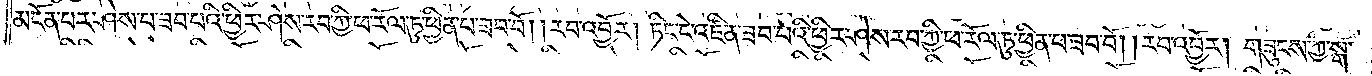མངོན་པར་ཤེས་པ་ཟབ་པའི་ཕྱིར་ཤེས་རབ་ཀྱི་ཕ་རོལ་ཏུ་ཕྱིན་པ་ཟབ་བོ། །རབ་འབྱོར། ཏིང་ངེ་འཛིན་ཟབ་པའི་ཕྱིར་ཤེས་རབ་ཀྱི་ཕ་རོལ་ཏུ་ཕྱིན་པ་ཟབ་བོ། །རབ་འབྱོར། གཟུངས་ཀྱི་སྒོ་
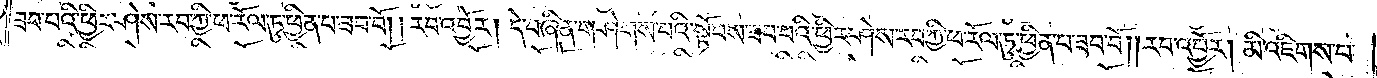ཟབ་པའི་ཕྱིར་ཤེས་རབ་ཀྱི་ཕ་རོལ་ཏུ་ཕྱིན་པ་ཟབ་བོ། །རབ་འབྱོར། དེ་བཞིན་གཤེགས་པའི་སྟོབས་ཟབ་པའི་ཕྱིར་ཤེས་རབ་ཀྱི་ཕ་རོལ་ཏུ་ཕྱིན་པ་ཟབ་བོ། །རབ་འབྱོར། མི་འཇིགས་པ་
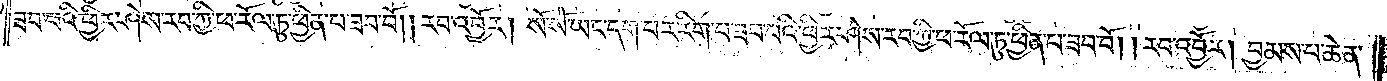ཟབ་པའི་ཕྱིར་ཤེས་རབ་ཀྱི་ཕ་རོལ་ཏུ་ཕྱིན་པ་ཟབ་བོ། །རབ་འབྱོར། སོ་སོ་ཡང་དག་པར་རིག་པ་ཟབ་པའི་ཕྱིར་ཤེས་རབ་ཀྱི་ཕ་རོལ་ཏུ་ཕྱིན་པ་ཟབ་བོ། །རབ་འབྱོར། བྱམས་པ་ཆེན་
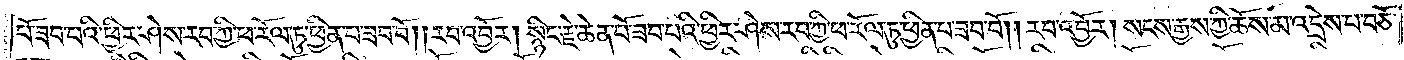པོ་ཟབ་པའི་ཕྱིར་ཤེས་རབ་ཀྱི་ཕ་རོལ་ཏུ་ཕྱིན་པ་ཟབ་བོ། །རབ་འབྱོར། སྙིང་རྗེ་ཆེན་པོ་ཟབ་པའི་ཕྱིར་ཤེས་རབ་ཀྱི་ཕ་རོལ་ཏུ་ཕྱིན་པ་ཟབ་བོ། །རབ་འབྱོར། སངས་རྒྱས་ཀྱི་ཆོས་མ་འདྲེས་པ་བཅོ་
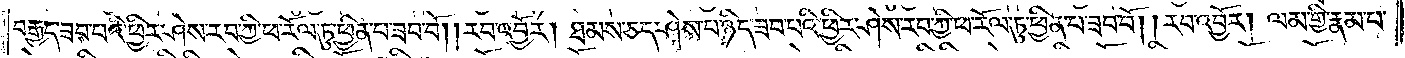བརྒྱད་ཟབ་པའི་ཕྱིར་ཤེས་རབ་ཀྱི་ཕ་རོལ་ཏུ་ཕྱིན་པ་ཟབ་བོ། །རབ་འབྱོར། ཐམས་ཅད་ཤེས་པ་ཉིད་ཟབ་པའི་ཕྱིར་ཤེས་རབ་ཀྱི་ཕ་རོལ་ཏུ་ཕྱིན་པ་ཟབ་བོ། །རབ་འབྱོར། ལམ་གྱི་རྣམ་པ་
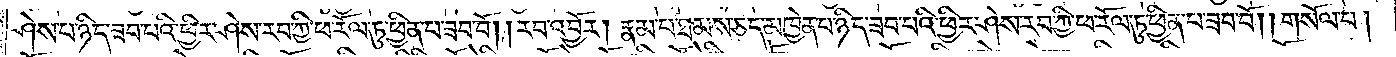ཤེས་པ་ཉིད་ཟབ་པའི་ཕྱིར་ཤེས་རབ་ཀྱི་ཕ་རོལ་ཏུ་ཕྱིན་པ་ཟབ་བོ། །རབ་འབྱོར། རྣམ་པར་ཐམས་ཅད་མཁྱེན་པ་ཉིད་ཟབ་པའི་ཕྱིར་ཤེས་རབ་ཀྱི་ཕ་རོལ་ཏུ་ཕྱིན་པ་ཟབ་བོ། །གསོལ་པ།
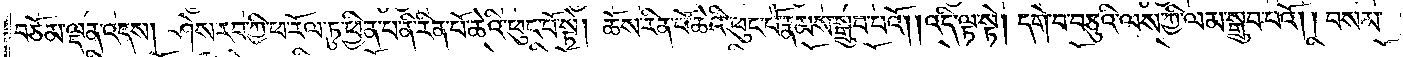བཅོམ་ལྡན་འདས། ཤེས་རབ་ཀྱི་ཕ་རོལ་ཏུ་ཕྱིན་པ་ནི་རིན་པོ་ཆེའི་ཕུང་པོ་སྟེ། ཆོས་རིན་པོ་ཆེའི་ཕུང་བོ་རྣམས་སྒྲུབ་པའོ། །འདི་ལྟ་སྟེ། དགེ་བ་བཅུའི་ལས་ཀྱི་ལམ་སྒྲུབ་པའོ། །བསམ་
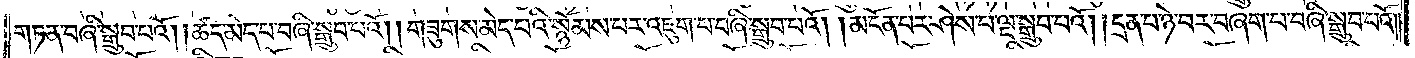གཏན་བཞི་སྒྲུབ་པའོ། །ཚད་མེད་པ་བཞི་སྒྲུབ་པའོ། །གཟུགས་མེད་པའི་སྙོམས་པར་འཇུག་པ་བཞི་སྒྲུབ་པའོ། །མངོན་པར་ཤེས་པ་ལྔ་སྒྲུབ་པའོ། །དྲན་པ་ཉེ་བར་བཞག་བ་བཞི་སྒྲུབ་པའོ། །
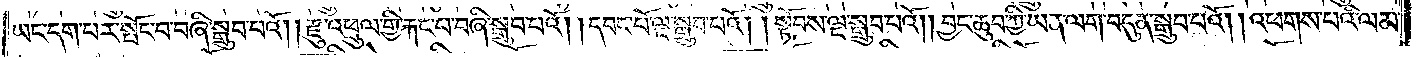ཡང་དག་པར་སྤོང་བ་བཞི་སྒྲུབ་པའོ། །རྫུ་འཕྲུལ་གྱི་རྐང་པ་བཞི་སྒྲུབ་པའོ། །དབང་པོ་ལྔ་སྒྲུབ་པའོ། །སྟོབས་ལྔ་སྒྲུབ་པའོ། །བྱང་ཆུབ་ཀྱི་ཡན་ལག་བདུན་སྒྲུབ་པའོ། །འཕགས་པའི་ལམ་
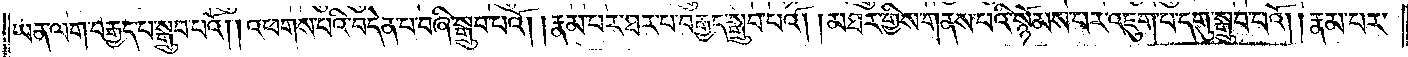ཡན་ལག་བརྒྱད་པ་སྒྲུབ་པའོ། །འཕགས་པའི་བདེན་པ་བཞི་སྒྲུབ་པའོ། །རྣམ་པར་ཐར་པ་བརྒྱད་སྒྲུབ་པའོ། །མཐར་གྱིས་གནས་པའི་སྙོམས་པར་འཇུག་པ་དགུ་སྒྲུབ་པའོ། །རྣམ་པར་
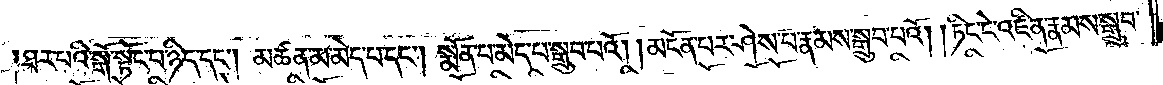ཐར་པའི་སྒོ་སྟོང་པ་ཉིད་དང༌། མཚན་མ་མེད་པ་དང༌། སྨོན་པ་མེད་པ་སྒྲུབ་པའོ། །མངོན་པར་ཤེས་པ་རྣམས་སྒྲུབ་པའོ། །ཏིང་ངེ་འཛིན་རྣམས་སྒྲུབ་
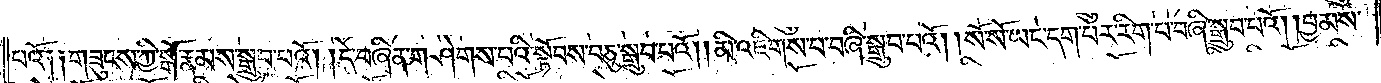པའོ༑ ༑གཟུངས་ཀྱི་སྒོ་རྣམས་སྒྲུབ་པའོ། །དེ་བཞིན་གཤེགས་པའི་སྟོབས་བཅུ་སྒྲུབ་པའོ། །མི་འཇིགས་པ་བཞི་སྒྲུབ་པའོ། །སོ་སོ་ཡང་དག་པར་རིག་པ་བཞི་སྒྲུབ་པའོ། །བྱམས་
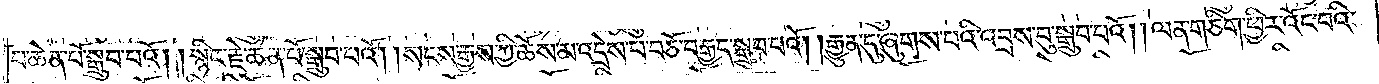པ་ཆེན་པོ་སྒྲུབ་པའོ། །སྙིང་རྗེ་ཆེན་པོ་སྒྲུབ་པའོ། །སངས་རྒྱས་ཀྱི་ཆོས་མ་འདྲེས་པ་བཅོ་བརྒྱད་སྒྲུབ་པའོ། །རྒྱུན་དུ་ཞུགས་པའི་འབྲས་བུ་སྒྲུབ་པའོ། །ལན་གཅིག་ཕྱིར་འོང་བའི་
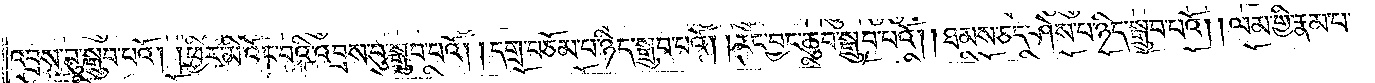འབྲས་བུ་སྒྲུབ་པའོ། །ཕྱིར་མི་འོང་བའི་འབྲས་བུ་སྒྲུབ་པའོ། །དགྲ་བཅོམ་པ་ཉིད་སྒྲུབ་པའོ། །རང་བྱང་ཆུབ་སྒྲུབ་པའོ། །ཐམས་ཅད་ཤེས་པ་ཉིད་སྒྲུབ་པའོ། །ལམ་གྱི་རྣམ་པ་
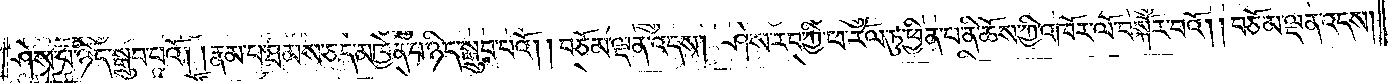ཤེས་པ་ཉིད་སྒྲུབ་པའོ། །རྣམ་པ་ཐམས་ཅད་མཁྱེན་པ་ཉིད་སྒྲུབ་པའོ། །བཅོམ་ལྡན་འདས། ཤེས་རབ་ཀྱི་ཕ་རོལ་ཏུ་ཕྱིན་པ་ནི་ཆོས་ཀྱི་འཁོར་ལོ་བསྐོར་བའོ། །བཅོམ་ལྡན་འདས།
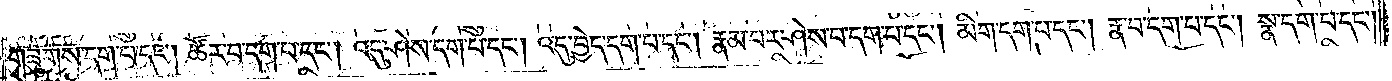གཟུགས་དག་པ་དང༌། ཚོར་བ་དག་པ་དང༌། འདུ་ཤེས་དག་པ་དང༌། འདུ་བྱེད་དག་པ་དང༌། རྣམ་པར་ཤེས་པ་དག་པ་དང༌། མིག་དག་པ་དང༌། རྣ་བ་དག་པ་དང༌། སྣ་དག་པ་དང༌།
